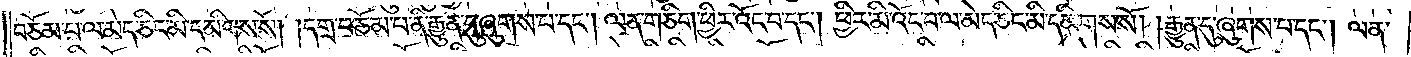བཅོམ་པ་ལ་མེད་ཅིང་མི་དམིགས་སོ། །དགྲ་བཅོམ་པ་ནི་རྒྱུན་དུ་ཞུགས་པ་དང༌། ལན་ཅིག་ཕྱིར་འོང་བ་དང༌། ཕྱིར་མི་འོང་བ་ལ་མེད་ཅིང་མི་དམིགས་སོ། །རྒྱུན་དུ་ཞུགས་པ་དང༌། ལན་
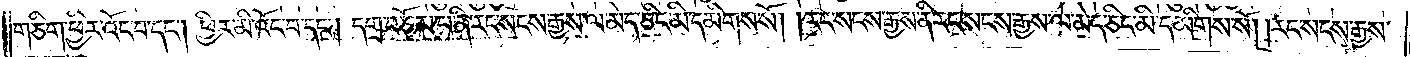གཅིག་ཕྱིར་འོང་བ་དང༌། ཕྱིར་མ་འོང་བ་དང༌། དགྲ་བཅོམ་པ་ནི་རང་སངས་རྒྱས་ལ་མེད་ཅིང་མི་དམིགས་སོ། །རང་སངས་རྒྱས་ནི་རང་སངས་རྒྱས་ལ་མེད་ཅིང་མི་དམིགས་སོ། །རང་སངས་རྒྱས་
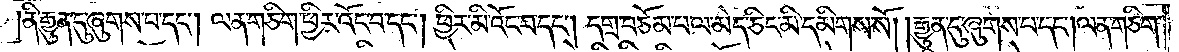ནི་རྒྱུན་དུ་ཞུགས་པ་དང༌། ལན་ཅིག་ཕྱིར་འོང་བ་དང༌། ཕྱིར་མི་འོང་བ་དང༌། དགྲ་བཅོམ་པ་ལ་མེད་ཅིང་མི་དམིགས་སོ། །རྒྱུན་དུ་ཞུགས་པ་དང༌། ལན་ཅིག་
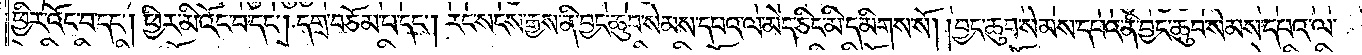ཕྱིར་འོང་བ་དང༌། ཕྱིར་མི་འོང་བ་དང༌། དགྲ་བཅོམ་པ་དང༌། རང་སངས་རྒྱས་ནི་བྱང་ཆུབ་སེམས་དཔའ་ལ་མེད་ཅིང་མི་དམིགས་སོ། །བྱང་ཆུབ་སེམས་དཔའ་ནི་བྱང་ཆུབ་སེམས་དཔའ་ལ་
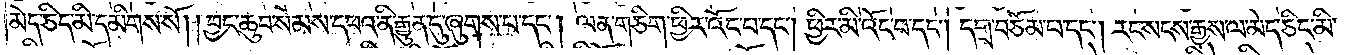མེད་ཅིང་མི་དམིགས་སོ། །བྱང་ཆུབ་སེམས་དཔའ་ནི་རྒྱུན་དུ་ཞུགས་པ་དང༌། ལན་ཅིག་ཕྱིར་འོང་བ་དང༌། ཕྱིར་མི་འོང་བ་དང༌། དགྲ་བཅོམ་པ་དང༌། རང་སངས་རྒྱས་ལ་མེད་ཅིང་མི་
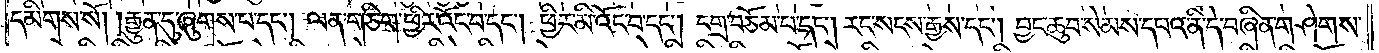དམིགས་སོ། །རྒྱུན་དུ་ཞུགས་པ་དང༌། ལན་ཅིག་ཕྱིར་འོང་བ་དང༌། ཕྱིར་མི་འོང་བ་དང༌། དགྲ་བཅོམ་པ་དང༌། རང་སངས་རྒྱས་དང༌། བྱང་ཆུབ་སེམས་དཔའ་ནི་དེ་བཞིན་གཤེགས་
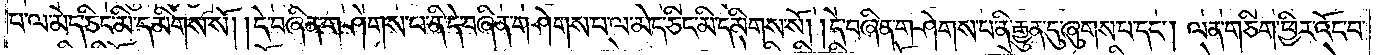པ་ལ་མེད་ཅིང་མི་དམིགས་སོ། །དེ་བཞིན་གཤེགས་པ་ནི་དེ་བཞིན་གཤེགས་པ་ལ་མེད་ཅིང་མི་དམིགས་སོ། །དེ་བཞིན་གཤེགས་པ་ནི་རྒྱུན་དུ་ཞུགས་པ་དང༌། ལན་ཅིག་ཕྱིར་འོང་བ་
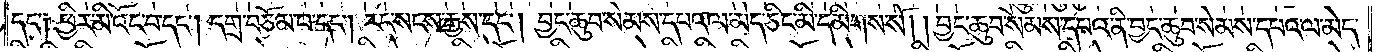དང༌། ཕྱིར་མི་འོང་བ་དང༌། དགྲ་བཅོམ་པ་དང༌། རང་སངས་རྒྱས་དང༌། །བྱང་ཆུབ་སེམས་དཔའ་ལ་མེད་ཅིང་མི་དམིགས་སོ། །བྱང་ཆུབ་སེམས་དཔའ་ནི་བྱང་ཆུབ་སེམས་དཔའ་ལ་མེད་
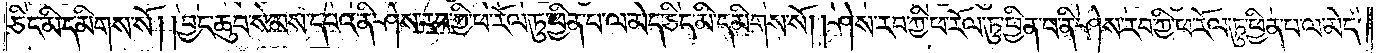ཅིང་མི་དམིགས་སོ། །བྱང་ཆུབ་སེམས་དཔའ་ནི་ཤེས་རབ་ཀྱི་ཕ་རོལ་ཏུ་ཕྱིན་པ་ལ་མེད་ཅིང་མི་དམིགས་སོ། །ཤེས་རབ་ཀྱི་ཕ་རོལ་ཏུ་ཕྱིན་པ་ནི་ཤེས་རབ་ཀྱི་ཕ་རོལ་ཏུ་ཕྱིན་པ་ལ་མེད་
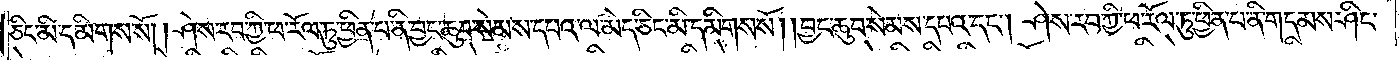ཅིང་མི་དམིགས་སོ། །ཤེས་རབ་ཀྱི་ཕ་རོལ་ཏུ་ཕྱིན་པ་ནི་བྱང་ཆུབ་སེམས་དཔའ་ལ་མེད་ཅིང་མི་དམིགས་སོ། །བྱང་ཆུབ་སེམས་དཔའ་དང༌། ཤེས་རབ་ཀྱི་ཕ་རོལ་ཏུ་ཕྱིན་པ་ནི་གདམས་ཤིང་
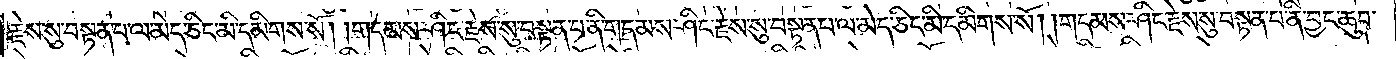རྗེས་སུ་བསྟན་པ་ལ་མེད་ཅིང་མི་དམིགས་སོ། །གདམས་ཤིང་རྗེས་སུ་བསྟན་པ་ནི་གདམས་ཤིང་རྗེས་སུ་བསྟན་པ་ལ་མེད་ཅིང་མི་དམིགས་སོ། །གདམས་ཤིང་རྗེས་སུ་བསྟན་པ་ནི་བྱང་ཆུབ་
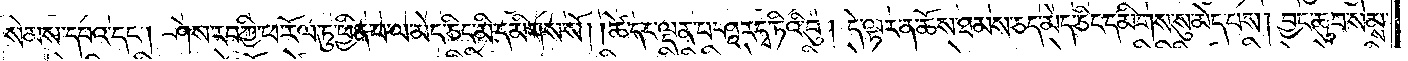སེམས་དཔའ་དང༌། ཤེས་རབ་ཀྱི་ཕ་རོལ་ཏུ་ཕྱིན་པ་ལ་མེད་ཅིང་མི་དམིགས་སོ། །ཚེ་དང་ལྡན་པ་ཤཱ་ར་དྭ་ཏིའི་བུ། དེ་ལྟར་ན་ཆོས་ཐམས་ཅད་མེད་ཅིང་དམིགས་སུ་མེད་པས། བྱང་ཆུབ་སེམས་
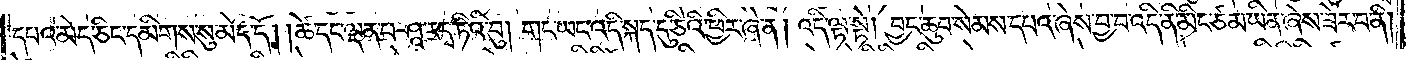དཔའ་མེད་ཅིང་དམིགས་སུ་མེད་དོ། །ཚེ་དང་ལྡན་པ་ཤཱ་ར་དྭ་ཏིའི་བུ། གང་ཡང་འདི་སྐད་དུ་ཅིའི་ཕྱིར་ཞེ་ན། འདི་ལྟ་སྟེ། བྱང་ཆུབ་སེམས་དཔའ་ཞེས་བྱ་བ་འདི་ནི་མིང་ཙམ་ཡིན་ཞེས་ཟེར་བ་ནི།
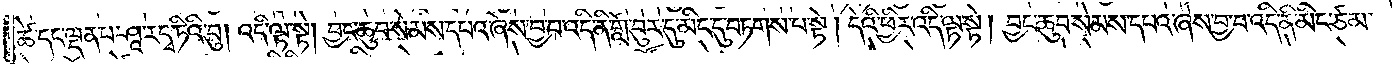ཚེ་དང་ལྡན་པ་ཤཱ་ར་དྭ་ཏིའི་བུ། འདི་ལྟ་སྟེ། བྱང་ཆུབ་སེམས་དཔའ་ཞེས་བྱ་བ་འདི་ནི་གློ་བུར་དུ་མིང་དུ་བཏགས་པ་སྟེ། དེའི་ཕྱིར་འདི་ལྟ་སྟེ། བྱང་ཆུབ་སེམས་དཔའ་ཞེས་བྱ་བ་འདི་ནི་མིང་ཙམ་
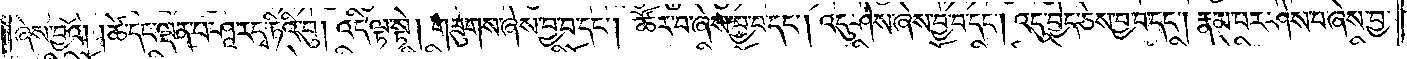ཞེས་བྱའོ། །ཚེ་དང་ལྡན་པ་ཤཱ་ར་དྭ་ཏིའི་བུ། འདི་ལྟ་སྟེ། གཟུགས་ཞེས་བྱ་བ་དང༌། ཚོར་བ་ཞེས་བྱ་བ་དང༌། འདུ་ཤེས་ཞེས་བྱ་བ་དང༌། འདུ་བྱེད་ཅེས་བྱ་བ་དང༌། རྣམ་པར་ཤེས་པ་ཞེས་བྱ་
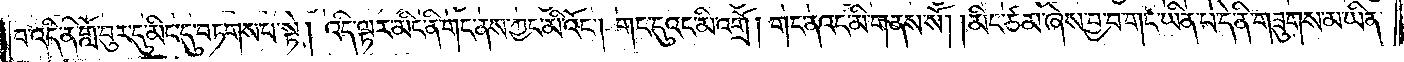བ་འདི་ནི་གློ་བུར་དུ་མིང་དུ་བཏགས་པ་སྟེ། འདི་ལྟར་མིང་ནི་གང་ནས་ཀྱང་མི་འོང༌། གང་དུའང་མི་འགྲོ། གང་ནའང་མི་གནས་སོ། །མིང་ཙམ་ཞེས་བྱ་བ་གང་ཡིན་པ་དེ་ནི་གཟུགས་མ་ཡིན།
